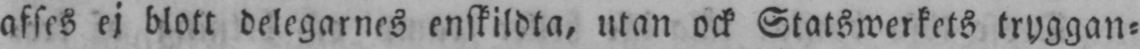afses ej blott delegarnes enskildta, utan ock Statswerkets tryggan-
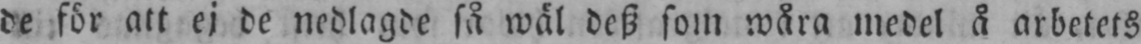de för att ej de nedlagde så wäl desz som wåra medel å arbetets
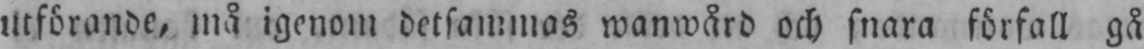utförande, må igenom detsammas wanwård och snara förfall gå
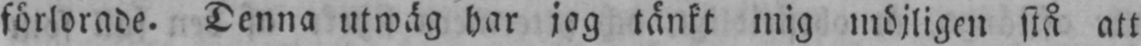förlorade. Denna utwäg har jag tänkt mig möjligen stå att
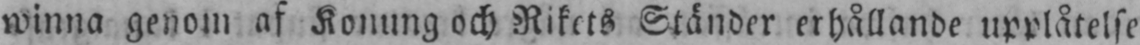winna genom af Konung och Rikets Ständer erhållande upplåtelse
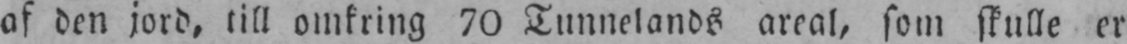af den jord, till omkring 70 Tunnelands areal, som skulle er-
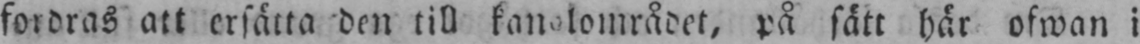fordras att ersätta den till kanalområdet, på sätt här ofwan i
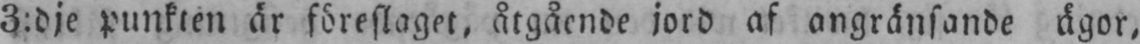3:dje punkten är föreslaget, åtgående jord af angränsande ägor,
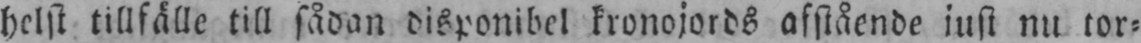helst tillfälle till sådan disponibel kronojords afstående just nu tor-
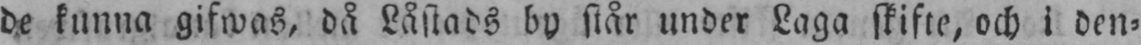de kunna gifwas, då Låstads by står under Laga skifte, och i den-
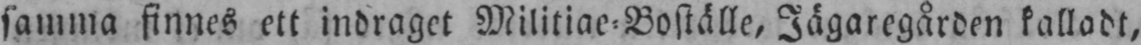samma finnes ett indraget Militiae-Boställe, Jägaregården kalladt,
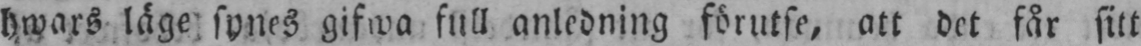hwars läge synes gifwa full anledning förutse, att det får sitt
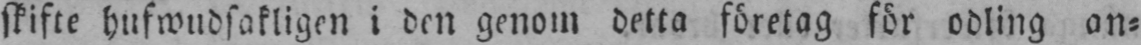skifte hufwudsakligen i den genom detta företag för odling an-
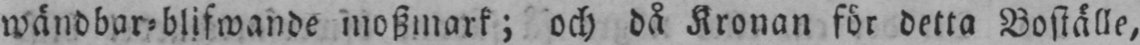wändbar-blifwande moszmark; och då Kronan för detta Boställe,
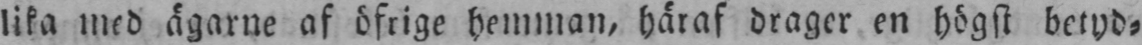lika med ägarne af öfrige hemman, häraf drager en högst betyd-
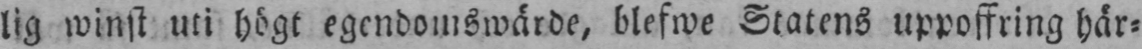lig winst uti högt egendomswärde, blefwe Statens uppoffring här-
